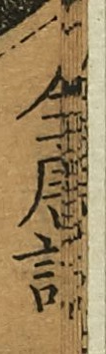全唐詩
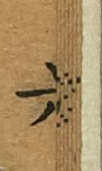六
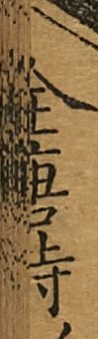全唐詩
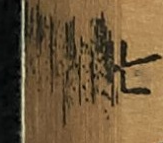七
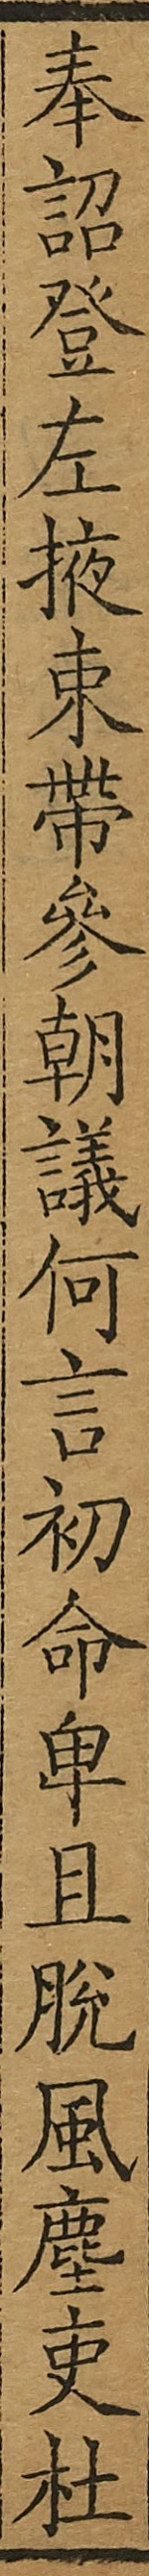奉詔登左掖束帶參朝議何言初命卑且脫風塵吏杜
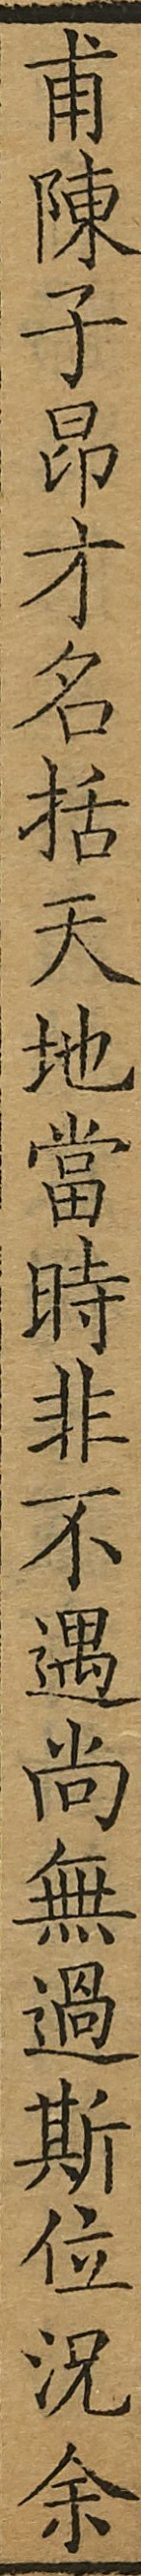甫陳子昂才名括天地當時非不遇尚無過斯位況余
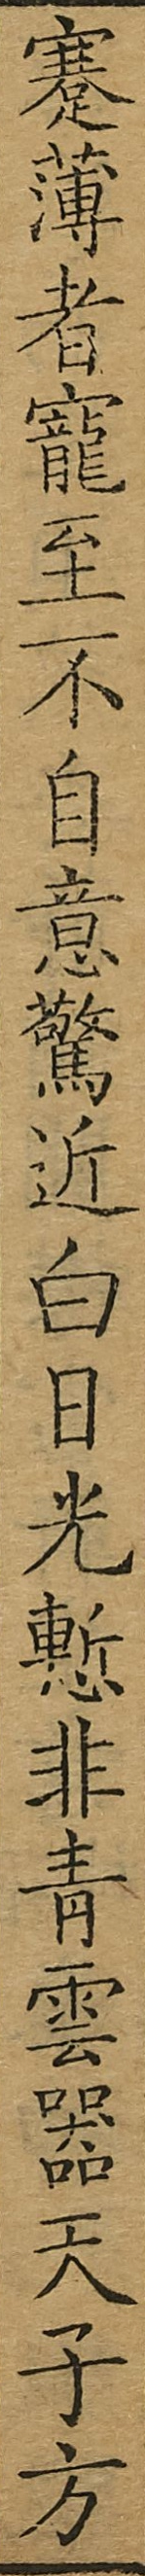蹇薄者寵至不自意驚近白日光慚非青雲器天子方
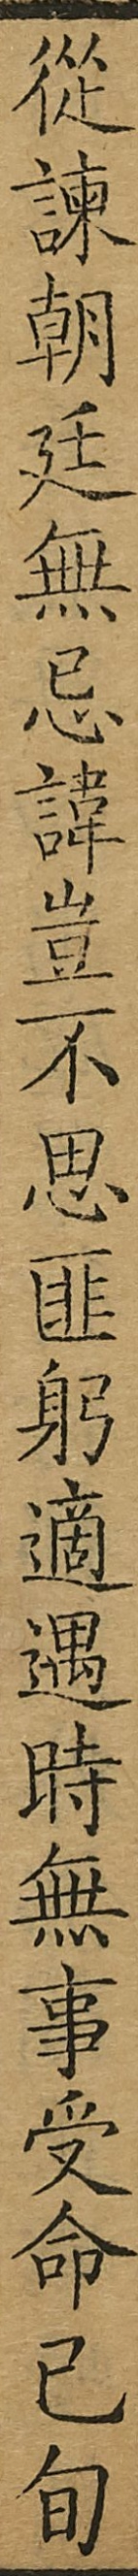從諫朝廷無忌諱豈不思匪躬適遇時無事受命已旬
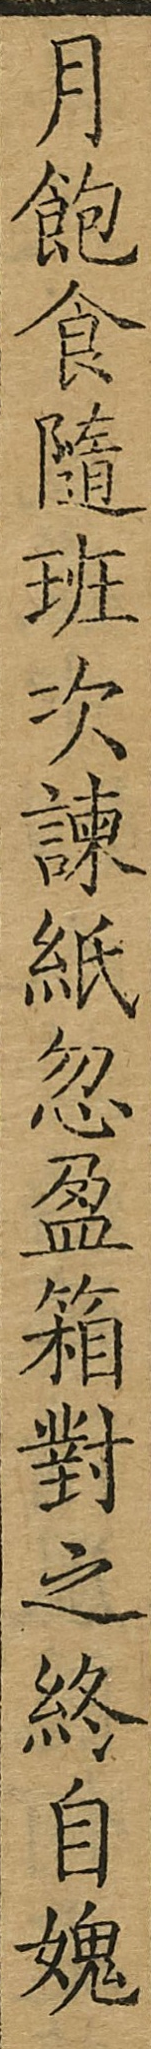月飽食隨班次諫紙忽盈箱對之終自愧
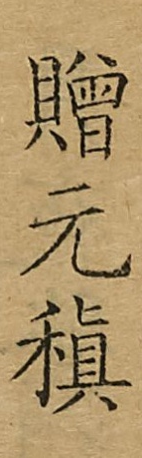贈元稹
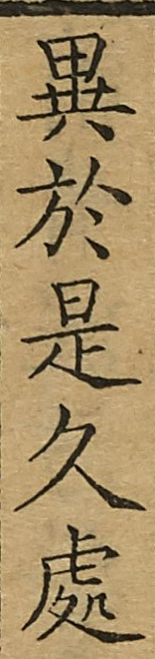異於是久處
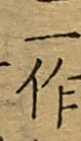一作
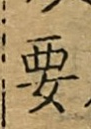要
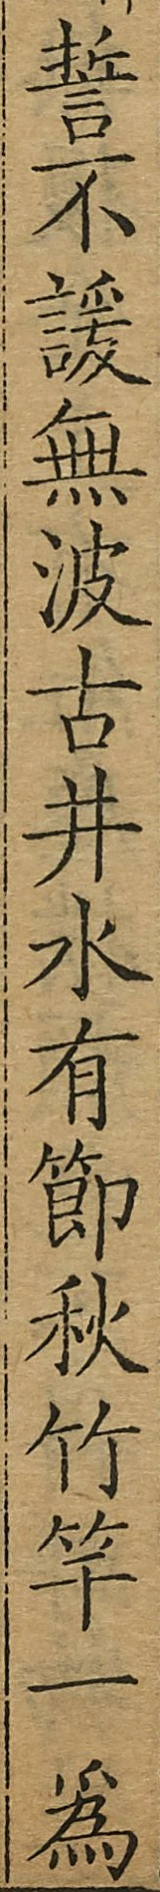誓不諼無波古井水有節秋竹竿一為
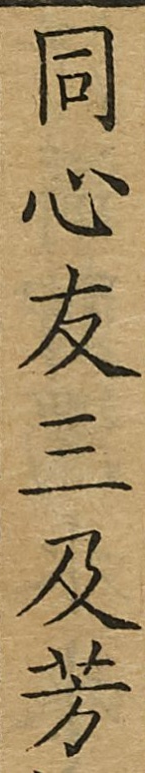同心友三及芳
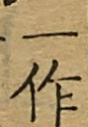一作
